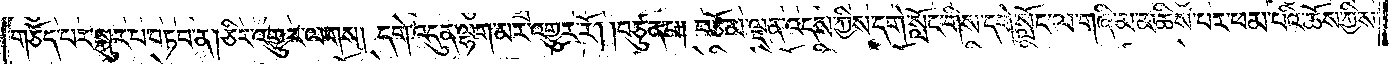གཅོད་པར་སྐུར་པ་བཏབ་ན། ཅིར་འགྱུར་ལགས། དགེ་འདུན་ལྷག་མར་འགྱུར་རོ། །བཙུན་པ། བཅོམ་ལྡན་འདས་ཀྱིས་དགེ་སློང་གིས་དགེ་སློང་ལ་གཞི་མ་མཆིས་པར་ཕམ་པའི་ཆོས་ཀྱིས་
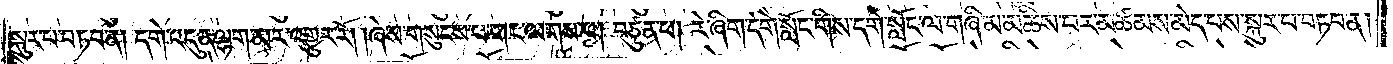སྐུར་པ་བཏབ་ན། དགེ་འདུན་ལྷག་མར་འགྱུར་རོ། །ཞེས་གསུངས་པ་གང་ལགས་པ། བཙུན་པ། རེ་ཞིག་དགེ་སློང་གིས་དགེ་སློང་ལ་གཞི་མ་མཆིས་པར་མཚམས་མེད་པས་སྐུར་པ་བཏབ་ན།
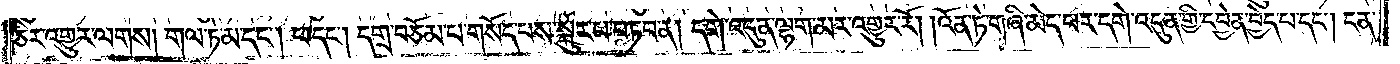ཅིར་འགྱུར་ལགས། གལ་ཏེ་མ་དང༌། ཕ་དང༌། དགྲ་བཅོམ་པ་གསོད་པས་སྐུར་པ་བཏབ་ན། དགེ་འདུན་ལྷག་མར་འགྱུར་རོ། །འོན་ཏེ་གཞི་མེད་པར་དགེ་འདུན་གྱི་དབྱེན་བྱེད་པ་དང༌། ངན་
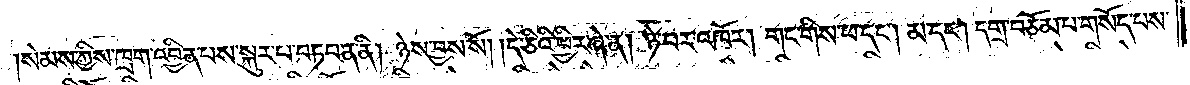།སེམས་ཀྱིས་ཁྲག་འབྱིན་པས་སྐུར་པ་བཏབ་ན་ནི། ཉེས་བྱས་སོ། །དེ་ཅིའི་ཕྱིར་ཞེ་ན། ཉེ་བར་འཁོར། གང་གིས་ཕ་དང༌། མ་དང༌། དགྲ་བཅོམ་པ་གསོད་པས་
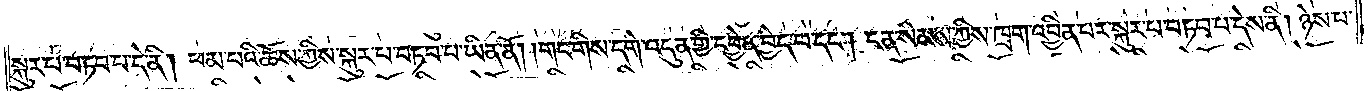སྐུར་པ་བཏབ་པ་དེ་ནི། ཕམ་པའི་ཆོས་ཀྱིས་སྐུར་པ་བཏབ་པ་ཡིན་ནོ། །གང་གིས་དགེ་འདུན་གྱི་དབྱེན་བྱེད་པ་དང༌། ངན་སེམས་ཀྱིས་ཁྲག་འབྱིན་པར་སྐུར་པ་བཏབ་པ་དེས་ནི། ཉེས་པ་
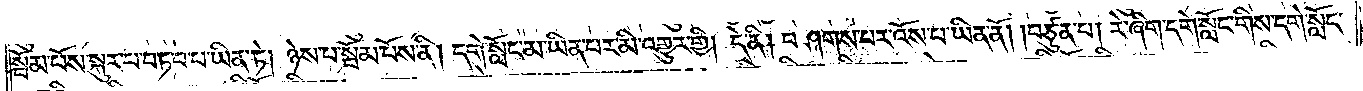སྦོམ་པོས་སྐུར་པ་བཏབ་པ་ཡིན་ཏེ། ཉེས་པ་སྦོམ་པོས་ནི། དགེ་སློང་མ་ཡིན་པར་མི་འགྱུར་གྱི། དེ་ནི། བཤགས་པར་འོས་པ་ཡིན་ནོ། །བཙུན་པ། རེ་ཞིག་དགེ་སློང་གིས་དགེ་སློང་
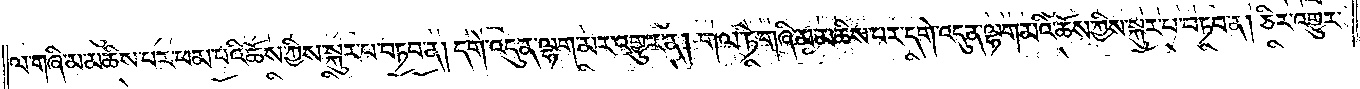ལ་གཞི་མ་མཆིས་པར་ཕམ་པའི་ཆོས་ཀྱིས་སྐུར་པ་བཏབ་ན། དགེ་འདུན་ལྷག་མར་འགྱུར་ན། གལ་ཏེ་གཞི་མ་མཆིས་པར་དགེ་འདུན་ལྷག་མའི་ཆོས་ཀྱིས་སྐུར་པ་བཏབ་ན། ཅིར་འགྱུར་
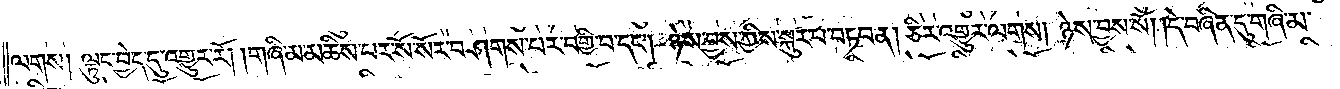ལགས། ལྟུང་བྱེད་དུ་འགྱུར་རོ། །གཞི་མ་མཆིས་པར་སོ་སོར་བཤགས་པར་བགྱི་བ་དང༌། ཉེས་བྱས་ཀྱིས་སྐུར་པ་བཏབ་ན། ཅིར་འགྱུར་ལགས། ཉེས་བྱས་སོ། །དེ་བཞིན་དུ་གཞི་མ་
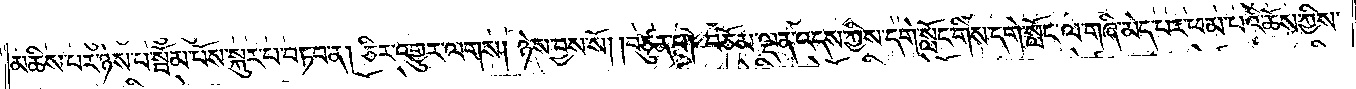མཆིས་པར་ཉེས་པ་སྦོམ་པོས་སྐུར་པ་བཏབ་ན། ཅིར་འགྱུར་ལགས། ཉེས་བྱས་སོ། །བཙུན་པ། བཅོམ་ལྡན་འདས་ཀྱིས་དགེ་སློང་གིས་དགེ་སློང་ལ་གཞི་མེད་པར་ཕམ་པའི་ཆོས་ཀྱིས་
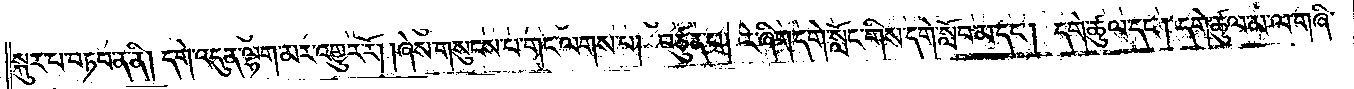སྐུར་པ་བཏབ་ན་ནི། དགེ་འདུན་ལྷག་མར་འགྱུར་རོ། །ཞེས་གསུངས་པ་གང་ལགས་པ། བཙུན་པ། རེ་ཞིག་དགེ་སློང་གིས་དགེ་སློབ་མ་དང༌། དགེ་ཚུལ་དང༌། དགེ་ཚུལ་མ་ལ་གཞི་
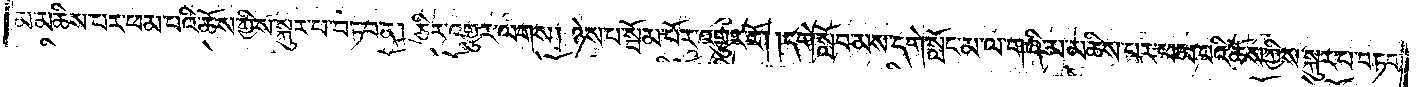མ་མཆིས་པར་ཕམ་པའི་ཆོས་ཀྱིས་སྐུར་པ་བཏབ་ན། ཅིར་འགྱུར་ལགས། ཉེས་པ་སྦོམ་པོར་འགྱུར་རོ། །དགེ་སློང་མས་དགེ་སློང་མ་ལ་གཞི་མ་མཆིས་པར་ཕམ་པའི་ཆོས་ཀྱིས་སྐུར་པ་བཏབ་
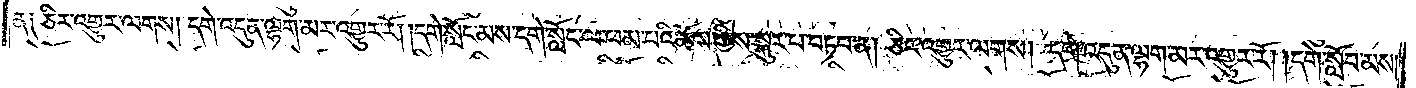ན༑ ཅིར་འགྱུར་ལགས། དགེ་འདུན་ལྷག་མར་འགྱུར་རོ། །དགེ་སློང་མས་དགེ་སློང་ལ་ཕམ་པའི་ཆོས་ཀྱིས་སྐུར་པ་བཏབ་ན། ཅིར་འགྱུར་ལགས། དགེ་འདུན་ལྷག་མར་འགྱུར་རོ། །དགེ་སློབ་མས་
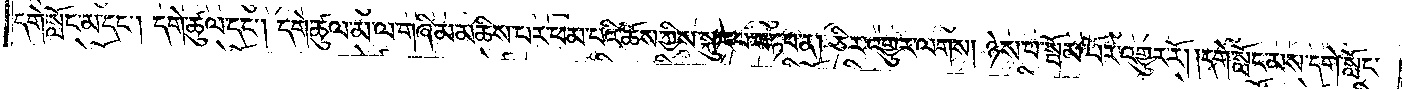དགེ་སློང་མ་དང༌། དགེ་ཚུལ་དང༌། དགེ་ཚུལ་མ་ལ་གཞི་མ་མཆིས་པར་ཕམ་པའི་ཆོས་ཀྱིས་སྐུར་པ་བཏབ་ན། ཅིར་འགྱུར་ལགས། ཉེས་པ་སྦོམ་པོར་འགྱུར་རོ། །དགེ་སློང་མས་དགེ་སློང་
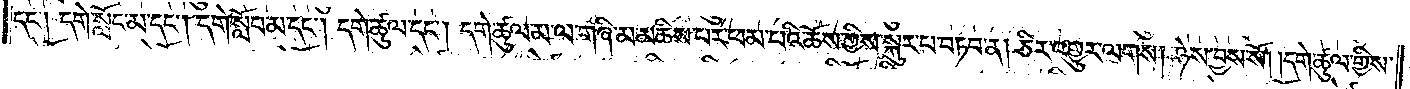དང༌། དགེ་སློང་མ་དང༌། དགེ་སློབ་མ་དང༌། དགེ་ཚུལ་དང༌། དགེ་ཚུལ་མ་ལ་གཞི་མ་མཆིས་པར་ཕམ་པའི་ཆོས་ཀྱིས་སྐུར་པ་བཏབ་ན། ཅིར་འགྱུར་ལགས། ཉེས་བྱས་སོ། །དགེ་ཚུལ་གྱིས་
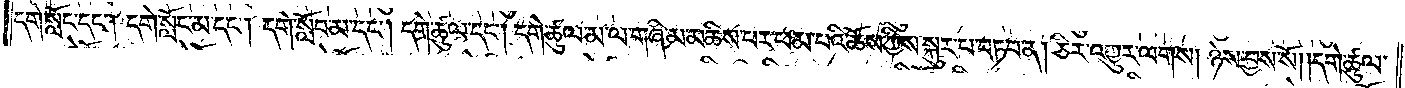དགེ་སློང་དང༌། དགེ་སློང་མ་དང༌། དགེ་སློབ་མ་དང༌། དགེ་ཚུལ་དང༌། དགེ་ཚུལ་མ་ལ་གཞི་མ་མཆིས་པར་ཕམ་པའི་ཆོས་ཀྱིས་སྐུར་པ་བཏབ་ན། ཅིར་འགྱུར་ལགས། ཉེས་བྱས་སོ། །དགེ་ཚུལ་
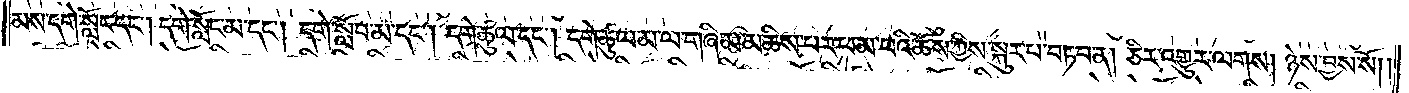མས་དགེ་སློང་དང༌། དགེ་སློང་མ་དང༌། དགེ་སློབ་མ་དང༌། དགེ་ཚུལ་དང༌། དགེ་ཚུལ་མ་ལ་གཞི་མ་མཆིས་པར་ཕམ་པའི་ཆོས་ཀྱིས་སྐུར་པ་བཏབ་ན། ཅིར་འགྱུར་ལགས། ཉེས་བྱས་སོ། །
